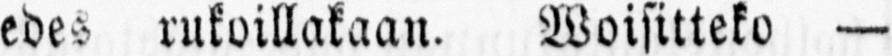edes rukoillakaan. Woisitteko —
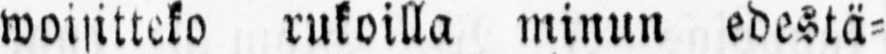woisitteko rukoilla minun edestä-
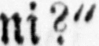ni?"
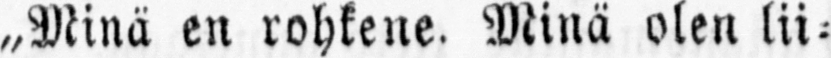„Minä en rohkene. Minä olen lii-
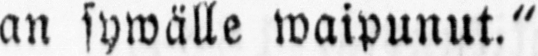an sywälle waipunut."
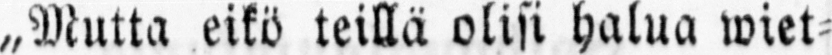„Mutta eikö teillä olisi halua wiet-
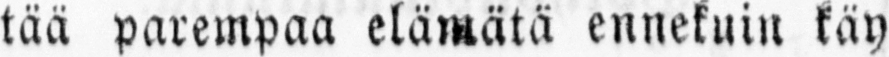tää parempaa elämätä ennekuin käy
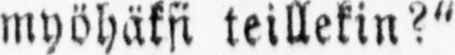myöhäksi teillekin?"
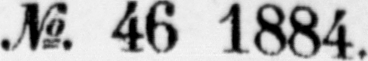No. 46 1884.
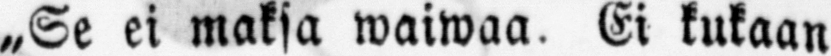„Se ei maksa waiwaa. Ei kukaan
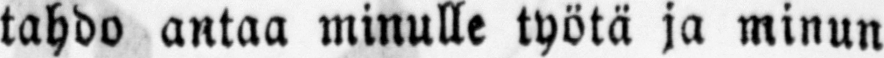tahdo antaa minulle työtä ja minun
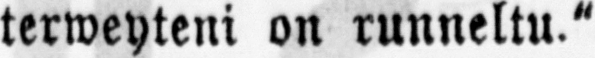terweyteni on runneltu."
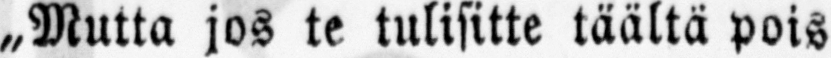„Mutta jos te tulisitte täältä pois
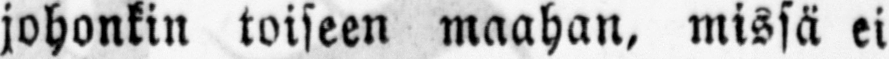johonkin toiseen maahan, missä ei
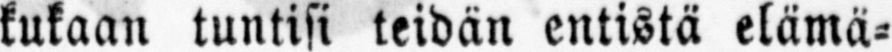kukaan tuntisi teidän entistä elämä-
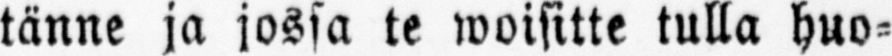tänne ja jossa te woisitte tulla huo-
